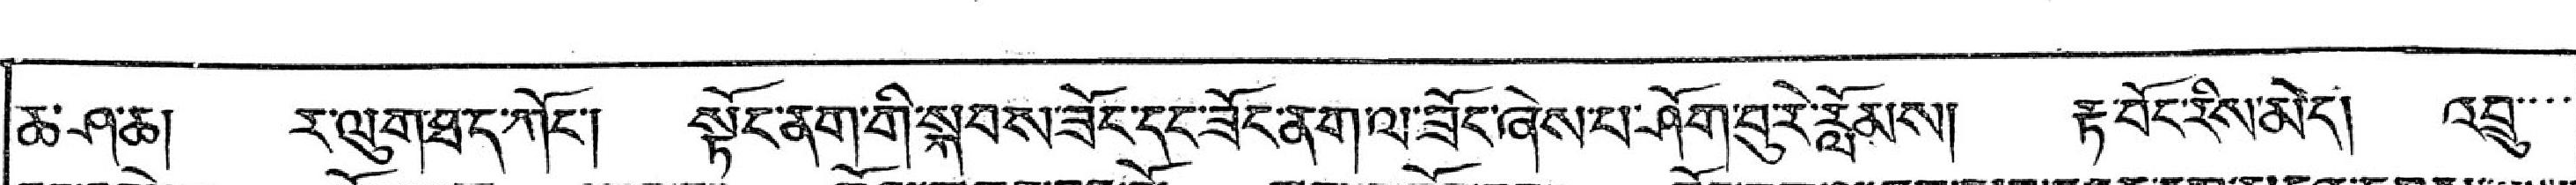ཆ་ཤ་ཆ། ར་ལུག་ཐད་ཀོང་། སྟོང་ནག་གི་སྐབས་ཟོང་དང་ཟོང་ནག་ལ་ཟོང་ཞེས་པ་ཤོག་བུ་རེ་རློམས། རྟ་བོང་རིས་མེད། འབྲུ་་་་
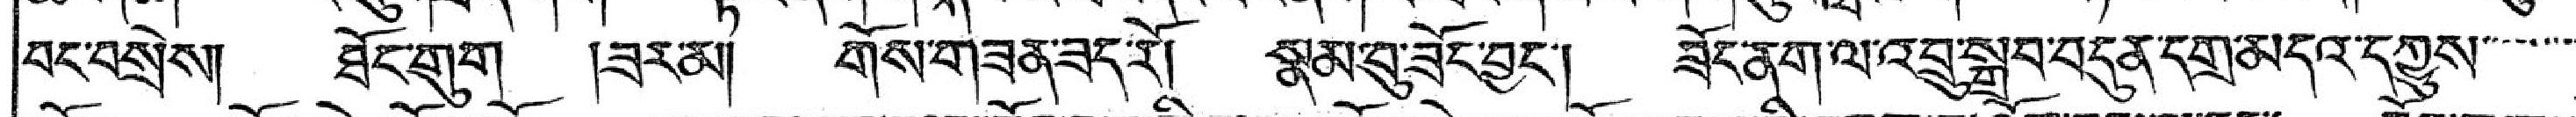བང་བསྲེས། ཐོང་གུག །ཟར་མ། གོས་གཟན་ཟད་རོ། སྣམ་བུ་ཟོང་བྱང་། ཟོང་ནག་ལ་འབྲུ་སྒྲུབ་བདུན་དགྲ་མདའ་དཀྱུས་་་་་་་
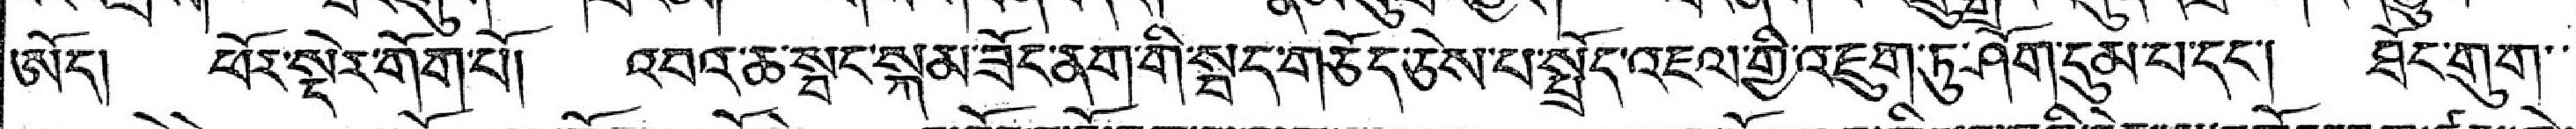ཨོད། ཕོར་སྡེར་གོག་པོ། འབའ་ཆ་སྦང་སྐམ་ཟོང་ནག་གི་སྦད་གཅོད་ཅེས་པ་སྤྲོད་འཇལ་གྱི་འཇུག་ཏུ་ཤོག་དུམ་པ་དང་། ཐོང་གུག་་
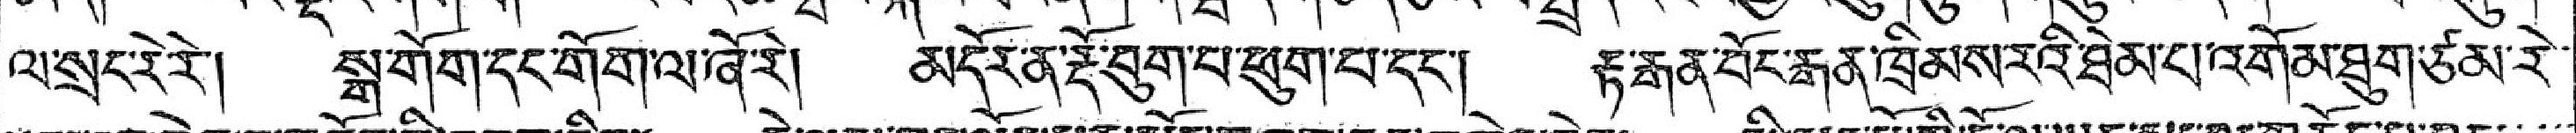ལ་སྲང་རེ་རེ། སྒ་གོག་དང་གོག་ལ་ཞོ་རེ། མདོར་ན་རྡོ་བུག་པ་ཕུག་པ་དང་། རྟ་རྒན་བོང་རྒན་ཁྲིམས་རའི་ཐེམ་པ་འགོམ་ཐུག་ཙམ་རེ་་
